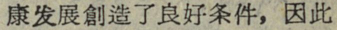康发展創造了良好条件，因此
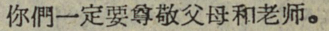你們一定要尊敬父母和老师。
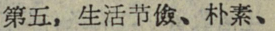第五，生活节儉、朴素、
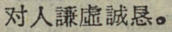对人謙虚誠恳。
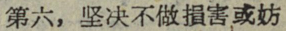第六，坚决不做損害或妨
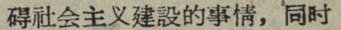碍社会主义建設的事情，同时
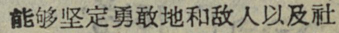能够坚定勇敢地和敌人以及社
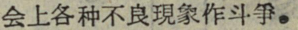会上各种不良現象作斗爭。
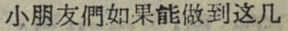小朋友們如果能做到这几
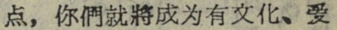点，你們就將成为有文化、爱
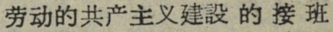劳动的共产主义建設的接班
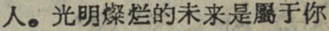人。光明燦烂的未来是屬于你
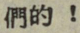們的！
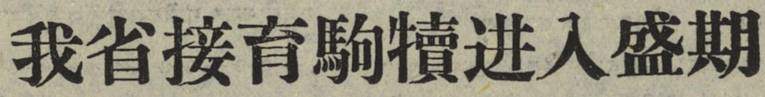我省接育駒犢进入盛期
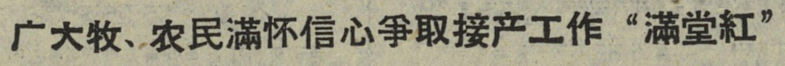广大牧、农民滿怀信心爭取接产工作“滿堂紅”
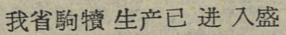我省駒犢生产已进入盛
